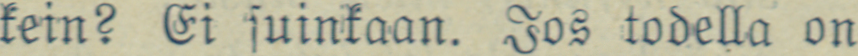kein? Ei suinkaan. Jos todella on
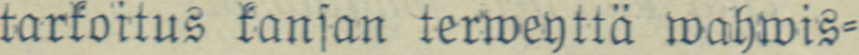tarkoitus kansan terweyttä wahwis-
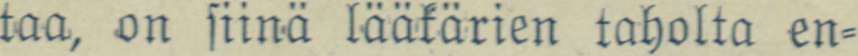taa, on siinä lääkärien taholta en-
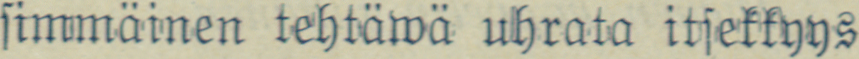simmäinen tehtäwä uhrata itsekkyys
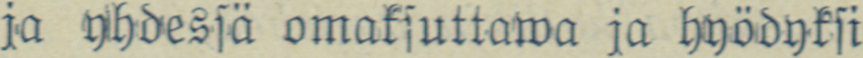ja yhdessä omaksuttawa ja hyödyksi
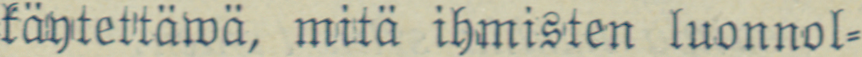käytettäwä, mitä ihmisten luonnol-
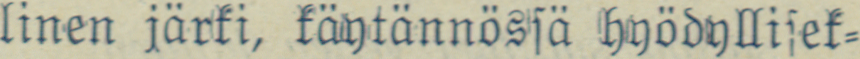linen järki, käytännössä hyödyllisek-
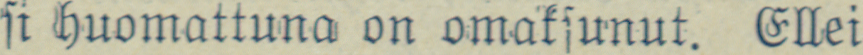si huomattuna on omaksunut. Ellei
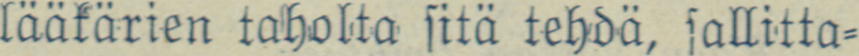lääkärien taholta sitä tehdä, sallitta-
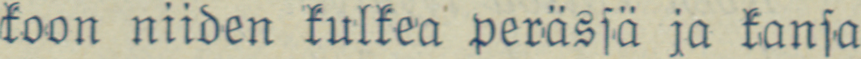koon niiden kulkea perässä ja kansa
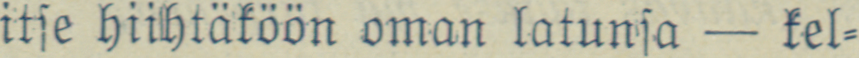itse hiihtäköön oman latunsa — kel-
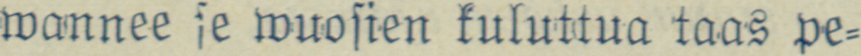wannee se wuosien kuluttua taas pe-
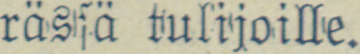rässä tulijoille.
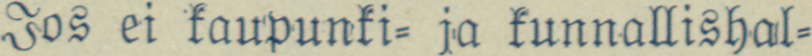Jos ei kaupunki- ja kunnallishal-
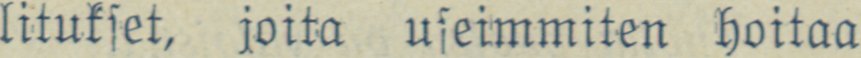litukset, joita useimmiten hoitaa
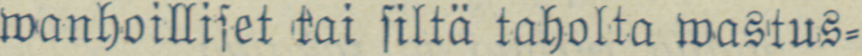wanhoilliset kai siltä taholta wastus-
